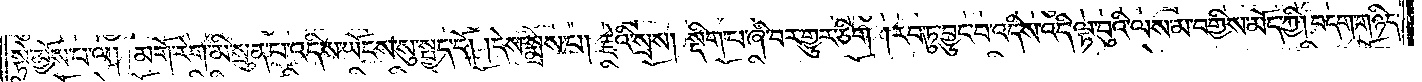སྟེ་མྱོས་པ་ལ། མགོ་རེག་མི་སྲུན་པ་འདིས་ཡོངས་སུ་སྤྱད་དོ། །དེས་སྨྲས་པ། རྗེའི་སྲས། སྡིག་པ་ཞི་བར་གྱུར་ཅིག །རབ་ཏུ་བྱུང་བ་འདིས་འདི་ལྟ་བུའི་ལས་མ་བགྱིས་མོད་ཀྱི། བདག་གཉིད་
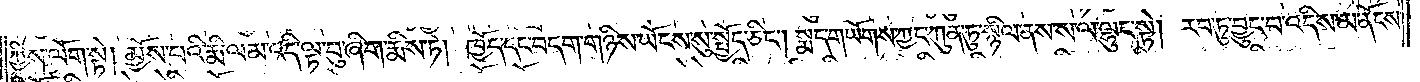ཀྱིས་ལོག་སྟེ། མྱོས་པའི་རྨི་ལམ་འདི་ལྟ་བུ་ཞིག་རྨིས་ཏེ། ཁྱོད་དང་བདག་གཉིས་ཡོངས་སུ་སྤྱོད་ཅིང༌། སྨད་གཡོགས་ཀྱང་ཀུན་ཏུ་སྙིལ་ནས་ས་ལ་ལྷུང་སྟེ། རབ་ཏུ་བྱུང་བ་འདིས་མ་ནོངས་
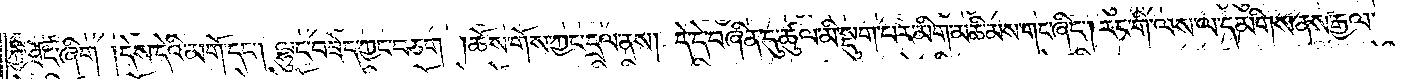ཀྱི་ཐོང་ཞིག །དེས་དེའི་མགོ་དང༌། ལྷུང་བཟེད་ཀྱང་བཅག །ཆོས་གོས་ཀྱང་དྲལ་ནས། དེ་དེ་བཞིན་དུ་ཚུལ་མི་སྡུག་པར་མིག་མཆི་མས་གང་ཞིང༌། རང་གི་ལས་ལ་དམིགས་ནས་རྒྱལ་
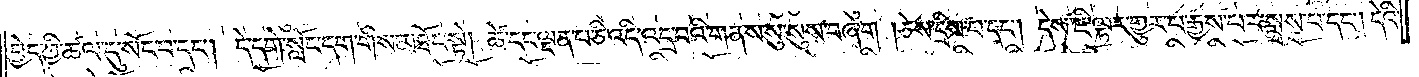བྱེད་ཀྱི་ཚལ་དུ་སོང་བ་དང༌། དེ་དགེ་སློང་དག་གིས་མཐོང་སྟེ། ཚེ་དང་ལྡན་པ་ཅི་འདི་འདྲ་བའི་གནས་སུ་སུས་བཞག །ཅེས་དྲིས་པ་དང༌། དེས་ཇི་ལྟར་གྱུར་པ་རྒྱས་པར་སྨྲས་པ་དང༌། དེའི་
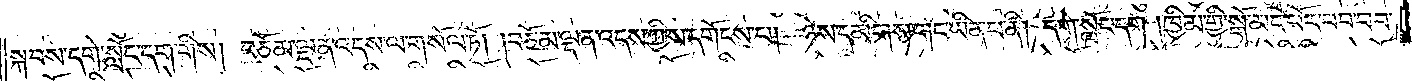སྐབས་དགེ་སློང་དག་གིས། བཅོམ་ལྡན་འདས་ལ་གསོལ་ཏོ། །བཅོམ་ལྡན་འདས་ཀྱིས་དགོངས་པ། ཉེས་དམིགས་གང་ཡིན་པ་ནི། དགེ་སློང་དག །ཁྱིམ་གྱི་སྒོ་མང་པོར་བབ་བབ་
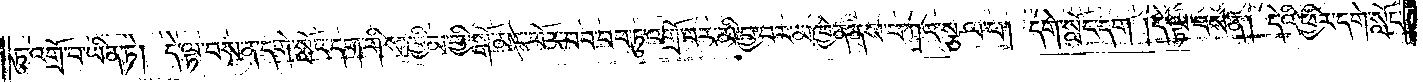ཏུ་འགྲོ་བ་ཡིན་ཏེ། དེ་ལྟ་བས་ན་དགེ་སློང་དག་གིས་ཁྱིམ་གྱི་སྒོ་མང་པོར་བབ་བབ་ཏུ་འགྲོ་བར་མི་བྱ་བར་མཁྱེན་ནས་བཀའ་སྩལ་པ། དགེ་སློང་དག །དེ་ལྟ་བས་ན། དེའི་ཕྱིར་དགེ་སློང་
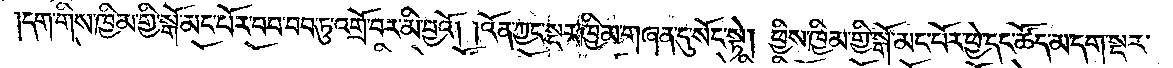དག་གིས་ཁྱིམ་གྱི་སྒོ་མང་པོར་བབ་བབ་ཏུ་འགྲོ་བར་མི་བྱའོ། །འོན་ཀྱང་སྔར་ཁྱིམ་གཞན་དུ་སོང་སྟེ། ཕྱིས་ཁྱིམ་གྱི་སྒོ་མང་པོར་ཕྱེ་དང་ཚོད་མ་དག་སྔར་
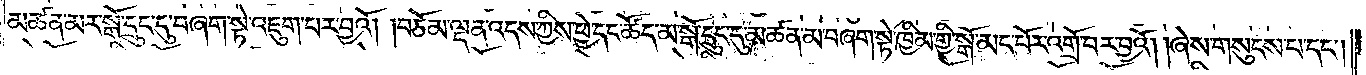མཚན་མར་སྒོ་དྲུང་དུ་བཞག་སྟེ་འཇུག་པར་བྱའོ། །བཅོམ་ལྡན་འདས་ཀྱིས་ཕྱེ་དང་ཚོད་མ་སྒོ་དྲུང་དུ་མཚན་མ་བཞག་སྟེ་ཁྱིམ་གྱི་སྒོ་མང་པོར་འགྲོ་བར་བྱའོ། །ཞེས་གསུངས་པ་དང༌།
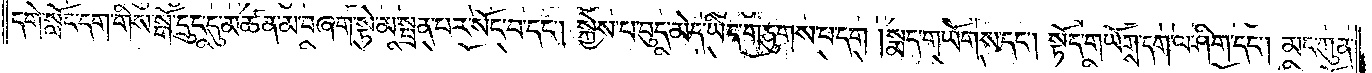དགེ་སློང་དག་གིས་སྒོ་དྲུང་དུ་མཚན་མ་བཞག་སྟེ་མ་སྦྲན་པར་སོང་བ་དང༌། སྐྱེས་པ་བུད་མེད་ཡིད་གཅུགས་པ་དག །སྨད་གཡོགས་དང༌། སྟོད་གཡོགས་དག་ལ་ཤིག་དང༌། མང་ཀུན་
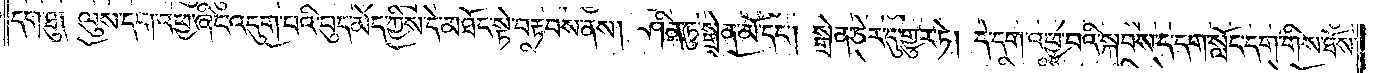དག་ཐུ། ལུས་དག་འཕྱ་ཞིང་འདུག་པའི་བུད་མེད་ཀྱིས་དེ་མཐོང་སྟེ་བརྟབས་ནས། ཤིན་ཏུ་སྒྲེན་མོ་དང༌། སྒྲེན་ཅེར་དུ་གྱུར་ཏེ། དེ་དག་འཕྱ་བའི་སྐབས་ད་དག་སློང་དག་གིས་ཐོས་
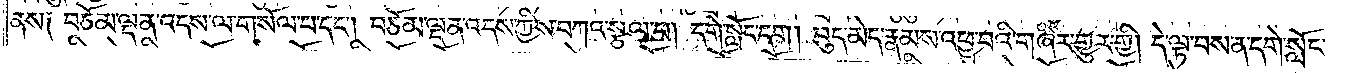ནས། བཅོམ་ལྡན་འདས་ལ་གསོལ་པ་དང༌། བཅོམ་ལྡན་འདས་ཀྱིས་བཀའ་སྩལ་པ། དགེ་སློང་དག །བུད་མེད་རྣམས་འཕྱ་བའི་གཞིར་གྱུར་གྱི། དེ་ལྟ་བས་ན་དགེ་སློང་
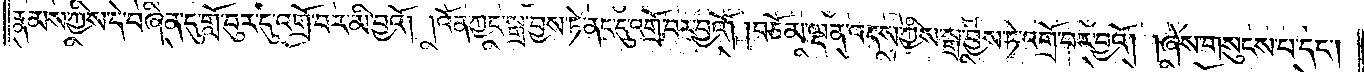རྣམས་ཀྱིས་དེ་བཞིན་དུ་གློ་བུར་དུ་འགྲོ་བར་མི་བྱའོ། །འོན་ཀྱང་སྒྲ་བྱས་ཏེ་ནང་དུ་འགྲོ་བར་བྱའོ། །བཅོམ་ལྡན་འདས་ཀྱིས་སྒྲ་བྱས་ཏེ་འགྲོ་བར་བྱའོ། །ཞེས་གསུངས་པ་དང༌།
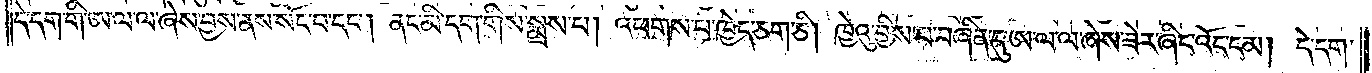དེ་དག་གི་ཨ་ལ་ལ་ཞེས་བྱས་ནས་སོང་བ་དང༌། ནང་མི་དག་གིས་སྨྲས་པ། འཕགས་པ་ཁྱེད་ཅག་ཅི། ཁྱེའུ་བྱིས་པ་བཞིན་དུ་ཨ་ལ་ལ་ཞེས་ཟེར་ཞིང་འོང་ངམ། དེ་དག་
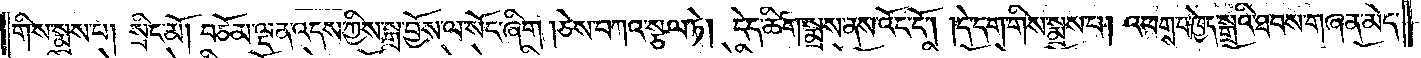གིས་སྨྲས་པ། སྲིང་མོ། བཅོམ་ལྡན་འདས་ཀྱིས་སྒྲ་བྱོས་ལ་སོང་ཞིག །ཅེས་བཀའ་སྩལ་ཏེ། ངེད་ཚིག་སྨྲས་ནས་འོང་ངོ༌། །དེ་དག་གིས་སྨྲས་པ། འཕགས་པ་ཁྱེད་སྒྲའི་ཐབས་གཞན་མེད་
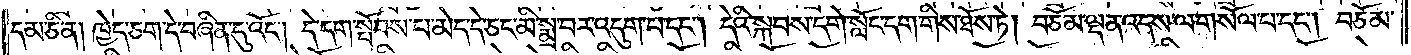དམ་ཅི་ན། ཁྱེད་ཅག་དེ་བཞིན་དུ་འོང༌། དེ་དག་སྤོབས་པ་མེད་དེ་ཅང་མི་སྨྲ་བར་འདུག་པ་དང༌། དེའི་སྐབས་དགེ་སློང་དག་གིས་ཐོས་ཏེ། བཅོམ་ལྡན་འདས་ལ་གསོལ་པ་དང༌། བཅོམ་
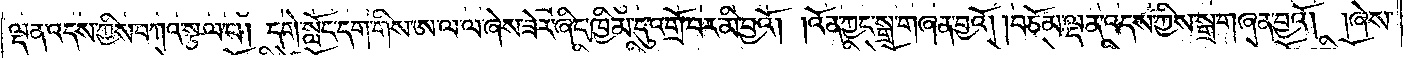ལྡན་འདས་ཀྱིས་བཀའ་སྩལ་པ། དགེ་སློང་དག་གིས་ཨ་ལ་ལ་ཞེས་ཟེར་ཞིང་ཁྱིམ་དུ་འགྲོ་བར་མི་བྱའོ། །འོན་ཀྱང་སྒྲ་གཞན་བྱའོ། །བཅོམ་ལྡན་འདས་ཀྱིས་སྒྲ་གཞན་བྱའོ། །ཞེས་
